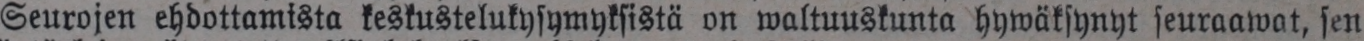Seurojen ehdottamista keskustelukysymyksistä on waltuuskunta hywäksynyt seuraawat, sen
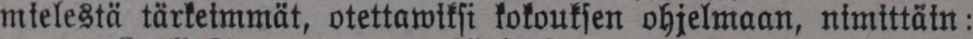mielestä tärkeimmät, otettawiksi kokouksen ohjelmaan, nimittäin-
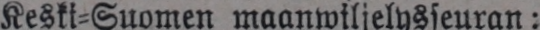Keski-Suomen maanwiljelysseuran:
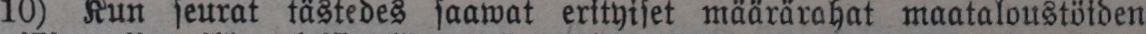10) Kun seurat tästedes saawat erityiset määrärahat maataloustöiden
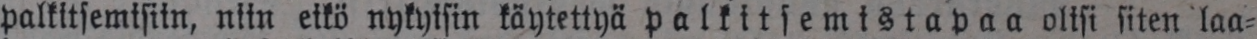palkitsemisiin, niin eikö nykyisin käytettyä palkitsemistapaa olisi siten laa-
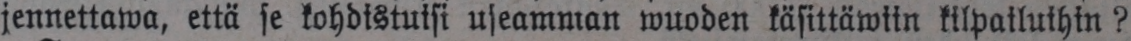jennettawa, että se kohdistuisi useamman wuoden käsittäwiin kilpailuihin?
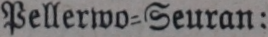Pellerwo-Seuran:
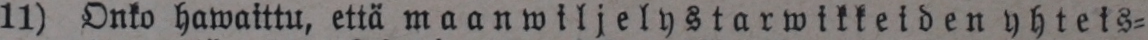11) Onko hawaittu, että maanwiljelystarwikkeiden yhteis-
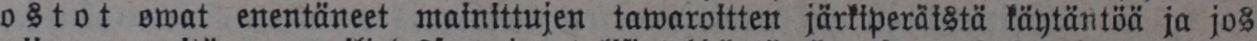ostot owat enentäneet mainittujen tawaroitten järkiperäistä käytäntöä ja jos
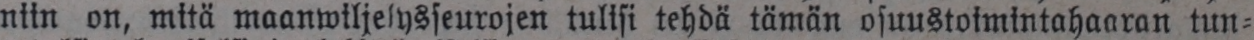niin on, mitä maanwiljelysseurojen tulisi tehdä tämän osuustoimintahaaran tun-
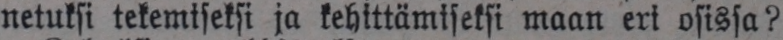netuksi tekemiseksi ja kehittämiseksi maan eri osissa?
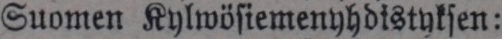Suomen Kylwösiemenyhdistyksen:
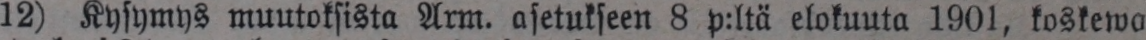12) Kysymys muutoksista Arm. asetukseen 8 p:ltä elokuuta 1901, koskewa
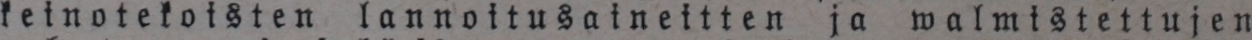keinotekoisten lannoitusaineitten ja walmistettujen
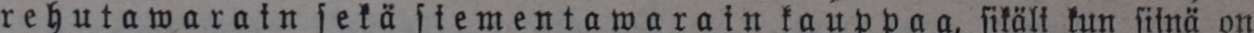rehutawarain sekä siementawarain kauppaa, sikäli kun siinä on
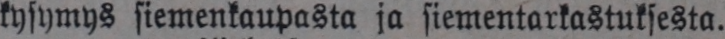kysymys siemenkaupasta ja siementarkastuksesta.
